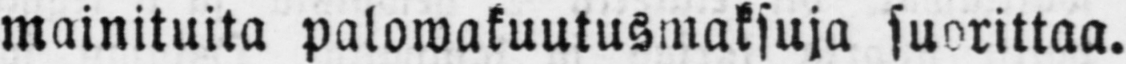mainitutta palowakuutusmaksuja suorittaa.
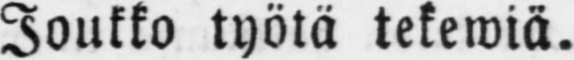Joukko työtä tekewiä.
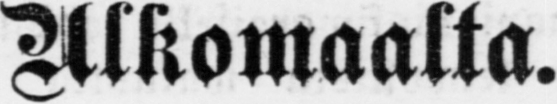Ulkomaalta.
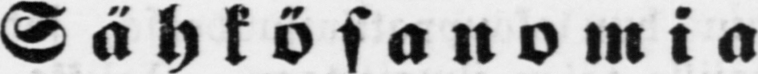Sähkösanomia.
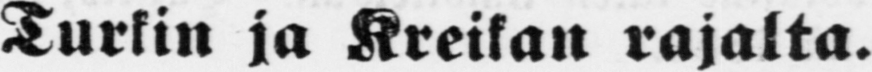Turkin ja Kreikan rajalta.
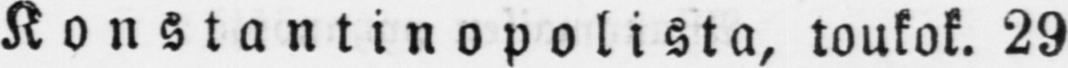Konstantinopolista, toukok. 29
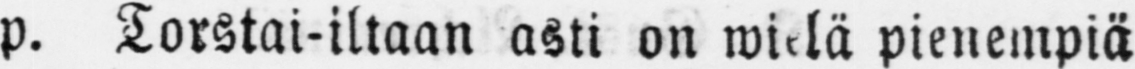p. Torstai-iltaan asti on wielä pienempiä
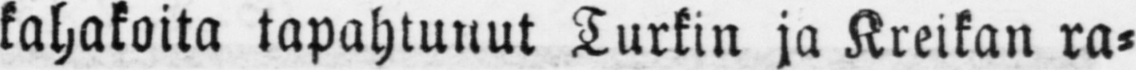kahakaita tapahtunut Turkin ja Kreikan ra-
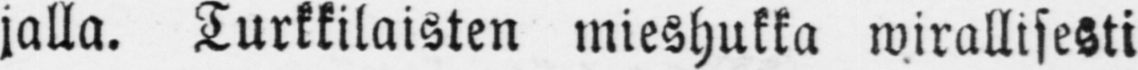jalla. Turkkilaisten mieshukka wirallisesti
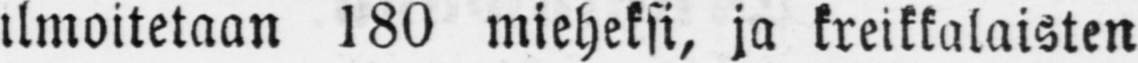ilmoitetaan 180 mieheksi, ja kreikkalaisten
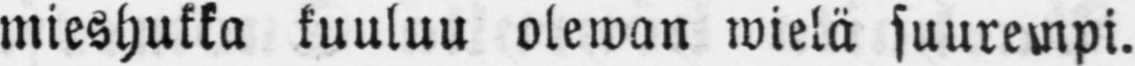mieshukka kuuluu olewan wielä suurempi.
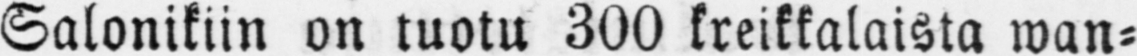Salonikiin on luotu 300 kreikkalaista wan-
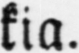kia.
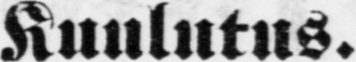Kuulutus.
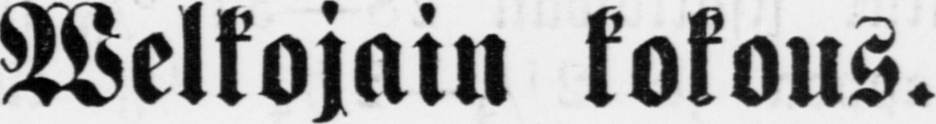Welkojain kokous.
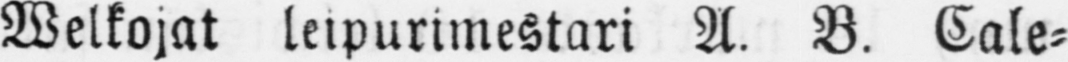Welkojat leipurimestari A. B. Cale-
